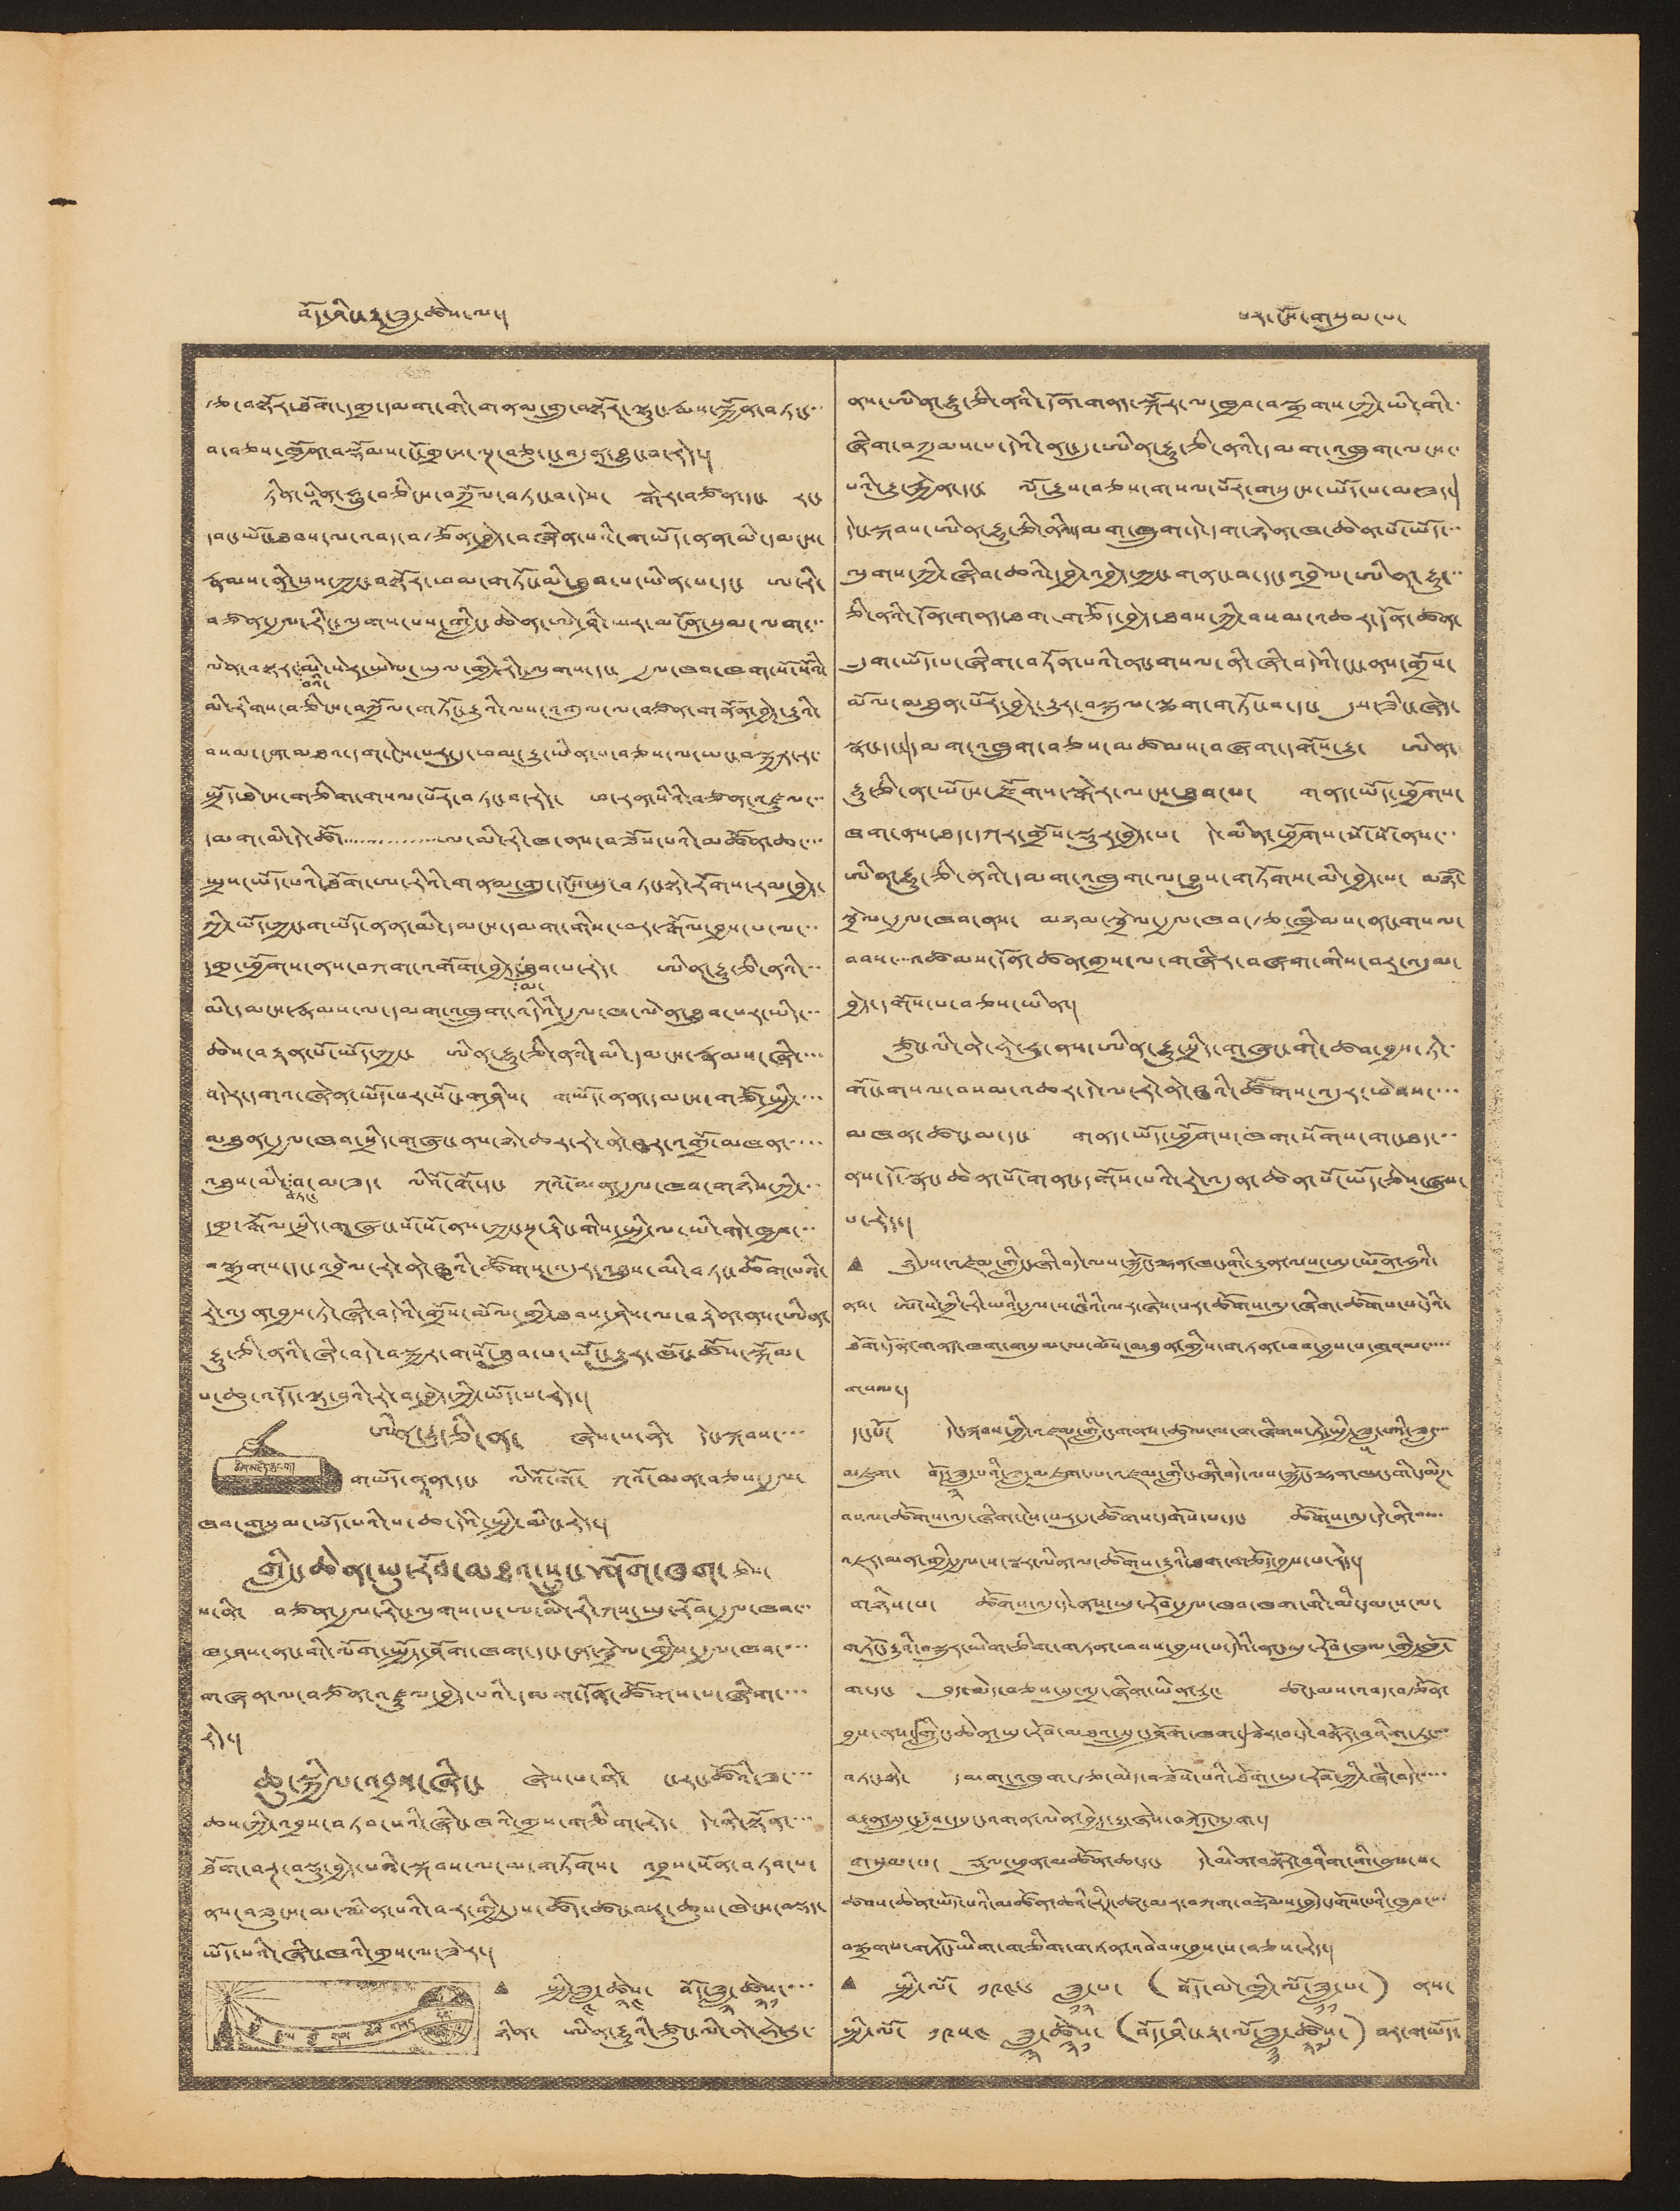བོད་ཤིང་རྟ་ཟླ་ཚེས་ལ་། པར་ངོས་གསུམ་པ་
རྩ་བསྟོར་ཐོག་དགྲ་དམག་གི་གནམ་གྲུ་བསྟོར་ལྷུང་རྨས་སྐྱོན་བཏང་་
བ་བཅས་ཁྱོན་བསྡོམས་ངོ་གྲངས་ལྔ་བཅུ་ང་བདུན་བྱུང་བ་རེད་།
ཏཱིན་པཱིན་ཧྥུ་བཅིངས་བཀྲོལ་བཏང་བ་དེས་ སྒེར་བཙན་དང་ རང་
དབང་ཡོང་ཐབས་ལ་འབད་བརྩོན་བྱེད་བཞིན་པའི་གཡོད་ནན་མི་དམངས་
རྣམས་ནི་སུས་ཀྱང་བསྟོར་ཕམ་གཏོང་མི་ཐུབ་པ་ཡིན་པ་དང་ ཨ་རི་
བཙན་རྒྱལ་རིང་ལུགས་པས་གླིང་ཆེན་ཨེ་ཤི་ཡར་མངོན་སུམ་ལག་་་
ལེན་བསྟར་
བའི་
མི་སེར་སྤེལ་ཡུལ་གྱི་རིང་ལུགས་དང་ རྒྱལ་ཁབ་ཁག་སོ་སོའི་
མི་རིགས་བཅིངས་བཀྲོལ་གཏོང་རྒྱུའི་ལས་འགུལ་ལ་བཙན་གནོན་བྱེད་རྒྱུའི་
བསམ་ངན་མཐའ་དག་ངེས་པར་དུ་ཕམ་རྒྱུ་ཡིན་པ་བཅས་ལ་ཡང་བསྐྱར་ར་་
སྤྲོད་ཐེངས་གཅིག་གསལ་པོར་བཏང་བ་རེད་ ཕ་རན་སིའི་བཙན་འཛུལ་་་
དམག་མི་དེ་ཚོ་་་་་་་་་་་་་་་་ཨ་མི་རི་ཁ་ནས་བཟོས་པའི་མཚོན་ཆ་་་་
སྤྲས་ཡོད་པའི་ཐོག་ཨ་རིའི་གནམ་གྲུ་དངོས་སུ་བཏང་སྟེ་རོགས་རམ་བྱེད་
ཀྱི་ཡོད་ཀྱང་གཡོད་ནན་མི་དམངས་དམག་གིས་ཕར་རྒོལ་བྱས་པ་ལ་་་
དགྲ་ཕྱོགས་ནས་བཀག་འགོག་བྱེད་
མ་
ཐུབ་པ་རེད་ ཨིན་རྷུ་ཅི་ནའི་་་
མི་དམངས་རྣམས་ལ་དམག་འཁྲུག་འདིའི་རྒྱལ་ཁ་ལེན་ཐུབ་པར་ཡིད་་་
ཆེས་བརྟན་པོ་ཡོད་ཀྱང་ ཨིན་རྷུ་ཅི་ནའི་མི་དམངས་རྣམས་ཞི་་་་
བདེར་དགའ་ཞེན་ཡོད་པར་སོང་གཤིས་ གཡོད་ནན་དམངས་གཙོ་སྤྱི་་་་
མཐུན་རྒྱལ་ཁབ་སྲིད་གཞུང་ནས་ཉེ་ཆར་རེ་ནེ་ཝར་འགྲོ་མཁན་་་་་
འཐུས་མི་
བཏང་
བ་མ་ཟད་ ལིའོ་གོ་དང་ ཀའོ་མན་རྒྱལ་ཁབ་གཉིས་ཀྱི་་་
དགྲ་རྒོལ་སྲིད་གཞུང་སོ་སོ་ནས་ཀྱང་སྔ་རྟིང་གིས་སྤྱི་ལ་ཡི་གེ་ཁྱབ་་་
བསྒྲགས་དང་འབྲེལ་རེ་ནེ་ཝའི་ཚོགས་འདུར་འཐུས་མི་བཏང་ཆོག་པའི་
རེ་འདུན་བྱས་ཏེ་ཞི་བདེའི་གྲོས་མོལ་གྱི་ཐབས་ཤེས་ལ་བརྟེན་ནས་ཨིན་
རྷུ་ཅི་ནའི་ཞི་བདེ་བསྐྱར་གསོ་ཐུབ་པ་ཡོང་རྒྱུར་ཁོང་ཚོས་སྐོམ་
པ་ཆུ་འདོད་ལྟ་བུའི་རེ་བ་བྱེད་ཀྱི་ཡོད་པ་རེད་།
ཚིག་མཛོད་ཆུང་བ་།
ཨིན་རྟུ་ཅི་ན་ ཞེས་པ་ནི་ དེང་སྐབས་་་་
གཡོད་ནཱན་དང་ ལིའོ་གོ་ ཀའོ་མན་བཅས་རྒྱལ་
ཁབ་གསུམ་ཡོད་པའི་ས་ཆ་དེའི་སྤྱི་མིང་རེད་།
གླིང་ཆེན་ཡུ་རོབ་མཐའ་སྲུང་ཤོག་ཁག་ ཅེས་
པ་ནི་ བཙན་རྒྱལ་རིང་ལུགས་པ་ཨ་མི་རི་ཀས་ཡུ་རོབ་རྒྱལ་ཁབ་་་
ཁ་ཤས་ནང་གི་ལོག་སྤྱོད་ཤོག་ཁག་དང་ངན་སྦྲེལ་གྱིས་རྒྱལ་ཁབ་་་་
གཞན་ལ་བཙན་འཛུལ་བྱེད་པའི་དམག་དོན་ཚོགས་པ་ཞིག་་་་
རེད་།
ཆུ་སྐྱིལ་འབྲས་ཞིང་ ཞེས་པ་ནི་ ང་རང་ཚོའི་ཟ་་་་
ཆས་ཀྱི་འབྲས་བཏབ་པའི་ཞིང་ཁའི་གྲས་གཅིག་རེད་ དེ་ནི་སྟོན་་་་
ཐོག་བརྔ་བསྡུ་བྱེད་པའི་སྐབས་ལ་མ་གཏོགས་ འབྲས་སོན་བཏབ་པ་
ནས་བཟུངས་མ་སྨིན་པའི་བར་གྱི་དུས་ཚོད་ཚང་མར་ཆུས་ཁེངས་བསྡད་
ཡོད་པའི་ཞིང་ཁའི་གྲས་ལ་ཟེར་།
ཕྱི་རྒྱལ་གྱི་གལ་ཆེའི་གནད་དོན་
• སྤྱི་ཟླ་
༤
ཚེས་
༢༤
བོད་ཟླ་
༢
ཚེས་
༢༡
་་་་
ཉིན་ ཨིན་རྟུའི་ཙུང་ལི་ནེ་ཧེ་རུ་་
ནས་ཨིན་རྷུ་ཅི་ནའི་དོན་གནད་སྐོར་ལ་ཁྱབ་བསྒྲགས་ཀྱི་ཡི་གེ་་
ཞིག་བཀྲམས་པ་དེའི་ནང་དུ་ཨིན་རྷུ་ཅི་ནའི་དམག་འཁྲུག་ལངས་་
པའི་རྒྱུ་རྐྱེན་དང་ ལོ་རྒྱུས་བཅས་གསལ་པོར་གསུངས་ཡོད་པ་མ་ཟད་།
དེང་སྐབས་ཨིན་རྷུ་ཅི་ནའི་དམག་ཁྲུག་དེ་དག་ཉེན་ཁ་ཆེན་པོ་ཡོད་་་
ལུགས་ཀྱི་ཞིབ་ཆའི་དབྱེ་འབྱེད་ཀྱང་གནང་བ་དང་འབྲེལ་ཨིན་རྷུ་་་
ཅི་ནའི་དོན་གནད་ཐག་གཅོད་བྱེད་ཐབས་ཀྱི་བསམ་འཆར་དོན་ཚན་
དྲུག་ཡོད་པ་ཞིག་བཏོན་པའི་ནང་གསལ་ནི་ཞི་བདེའི་ངང་ནས་གྲོས་
མོལ་མཐུན་པོར་བྱེད་རྒྱུར་བསྐུལ་ལྕག་གཏོང་བ་དང་ དུས་ཟིང་ཞེད་
སྣང་དང་།དམག་འཁྲུག་བཅས་མཚམས་བཞག་དགོས་རྒྱུ་ ཨིན་
རྷུ་ཅི་ན་ཡོངས་རྫོགས་སྒེར་ལངས་ཐུབ་པ་ གནད་ཡོད་ཕྱོགས་
ཁག་ནས་ཐད་དཀར་གྲོས་སྡུར་བྱེད་པ་ དེ་མིན་ཕྱོགས་སོ་སོ་ནས་་་
ཨིན་རྷུ་ཅི་ནའི་དམག་འཁྲུག་ལ་བྱུས་གཏོགས་མི་བྱེད་པ་ མཉཾ་
སྦྲེལ་རྒྱལ་ཁབ་ནས་ མཉམ་སྦྲེལ་རྒྱལ་ཁབ་རྩ་ཁྲིམས་ནང་གསལ་
བབས་་་་འཚམས་དོན་ཚན་གྲས་ལ་གཞིར་བཞག་གིས་བར་འདུམ་
བྱེད་དགོས་པ་བཅས་ཡིན་།
ཙུང་ལི་ནེ་ཧེ་རུ་ནས་ཨིན་རྟུ་སྲིད་གཞུང་གི་ཚབ་བྱས་ཏེ་་
གོང་གསལ་བསམ་འཆར་དེ་ལ་རེ་ནེ་ཝའི་ཚོགས་འདུར་ཕེབས་་་་
མཁན་ཚང་མ་དང་ གནད་ཡོད་ཕྱོགས་ཁག་སོགས་གང་ཐད་་་
ནས་དོ་སྣང་ཆེན་པོ་གནང་དགོས་པའི་རེ་འདུན་ཆེན་པོ་ཡོད་ཅེས་ཞུས་
པ་རེད་།
• ཉེ་དུས་འཛམ་གླིང་ཞི་བདེ་ལས་སྐྱོང་ལྷན་ཁང་གི་རྒྱུན་ལས་ཨུ་ཡོན་ཧུའི་
ནས་ ཨོ་སེ་ཀྲི་རི་ཡའི་རྒྱལ་ས་ཝིའི་ལར་ཞེས་པར་ཚོགས་འདུ་ཞིག་ཚོགས་པ་དེའི་
ཐོག་དོན་གནད་ཁག་གསུམ་ལ་མོས་མཐུན་གྱིས་གཏན་ཕབ་བྱས་པ་གཤམ་་་་་
གསལ་།
དང་པོ་ དེང་སྐབས་ཀྱི་འཛམ་གླིང་གནས་ཚུལ་ལ་གཞིགས་ཏེ་སྤྱི་ཟླ་
༥
པའི་ཟླ་་་་
མཇུག་ བོད་ཟླ་
༣
པའི་ཟླ་མཇུག་ལ་འཛམ་གླིང་ཞི་བདེ་ལས་སྐྱོང་ལྷན་ཁང་གི་དམིཊ་
བསལ་ཚོགས་འདུ་ཞིག་ངེས་པར་དུ་ཚོགས་དགོས་པ་དང་ ཚོགས་འདུ་དེ་ནི་་་་་
འཇར་མན་གྱི་རྒྱལ་ས་སྦར་ལིན་ལ་ཚོགས་རྒྱུའི་ཐག་གཅོད་བྱས་པ་རེད་།
གཉིས་པ་ ཚོགས་འདུ་དེ་ནས་ཡུ་རོབ་རྒྱལ་ཁབ་ཁག་གི་མི་དམངས་ལ་
གཏོང་རྒྱུའི་བསྐུར་ཡིག་ཅིག་གཏན་ཕབས་བྱས་པ་དེའི་ནང་ཡུ་རོབ་ཁུལ་གྱི་ཁྱོ་
ག་དང་ བུད་མེད་བཅས་སུ་འདྲ་ཞིག་ཡིན་རུང་ ཚང་མས་འབད་བརྩོན་
བྱས་ནས་「གླིང་ཆེན་ཡུ་རོབ་མཐའ་སྲུང་ཤོག་ཁག་」ཟེར་བ་དེ་བསྟོར་བཤིག་ཏུ་་་
བཏང་སྟེ་ དམག་འཁྲུག་རྩ་མེད་བཟོས་པའི་ཐོག་ཡུ་རོབ་ཀྱི་ཞི་བདེ་་་་་
བརྟན་སྲུང་རྒྱབབ་དཔུང་འགན་ལེན་བྱེད་རྒྱུ་ཞེས་བཀོད་འདུག་།
གསུམ་པ་ རྡུལ་ཕྲན་མཚོན་ཆ་དང་ དེ་མིན་བསྟོར་བཤིག་གི་ནུས་པ་
ཚབས་ཆེན་ཡོད་པའི་མཚོན་ཆའི་རིཊ་ཚང་མར་བཀག་བསྡོམས་བྱེད་དགོས་པའི་ཁྱབ་་་་
བསྒྲགས་གཏོང་ཡིག་གཅིག་གཏན་འབེབས་བྱས་པ་བཅས་རེད་།
• སྤྱི་ལོ་ ༡༩༤༦ ཟླ་
༡༢
པ་ (བོད་མེ་ཁྱི་ལོ་ཟླ་
༡༡
པ་) ནས་
སྤྱི་ལོ་ ༡༩༥༤ ཟླ་
༣
ཚེས་
༣༡
(བོད་ཤིང་རྟ་ལོ་ཟླ་
༡༡
ཚེས་)
༢༧
བར་གཡོད་
